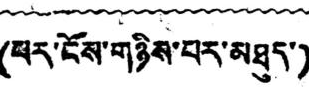(པར་ངོས་གཉིས་པར་མཐུད་)
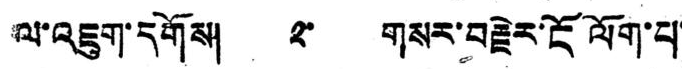ལ་འཇུག་དོགས། ༢་ གསར་བརྗེར་ངོ ལོག་པ་་
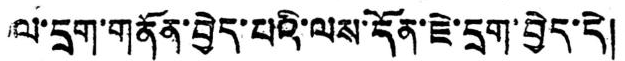ལ་དྲག་གནོན་བྱེད་པའི་ལས་དོན་ཇེ་དྲག་བྱེད་དེ།
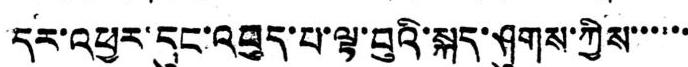དར་འཕྱར་དུང་འབུད་པ་ལྟ་བུའི་སྐད་ཤུགས་ཀྱིས་་་་་་
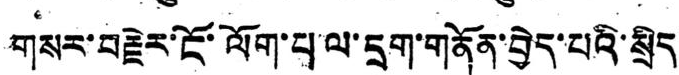གསར་བརྗེར་ངོ་ལོག་པ་ལ་དྲག་གནོན་བྱེད་པའི་སྲིད་
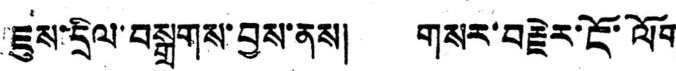ཇུས་དྲིལ་བསྒྲགས་བཡས་ནས། གསར་བརྗེར་ངོ་ལོག
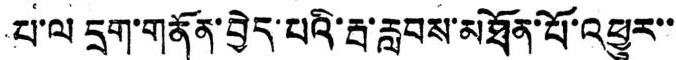པ་ལ དྲག་གནོན་བྱེད་པའི་རྦ་རླབས་མཐོན་པོ་འཕྱུར་་་
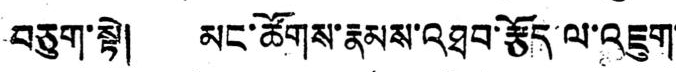བཅུག་སྟེ། མང་ཚོགས་རྣམས་འཐབ་རྩོད་ལ་འཇུག་
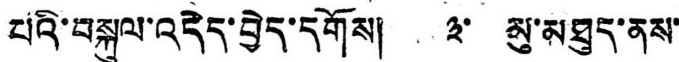པའི་བསྐུལ་འདེད་བྱེད་དགོས། ༣་ མུ་མཐུད་ནས་
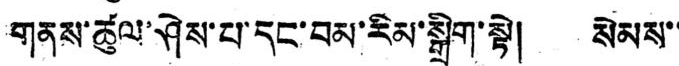གནས་ཚུལ་ཤེས་པ་དང་བམ་རིམ་སྒྲིག་སྟེ། སེམས་་
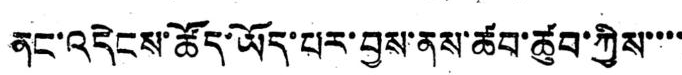ནང་འདེངས་ཚོད་ཡོད་པར་བྱས་ནས་ཚབ་ཚུབ་ཀྱིས་་་་
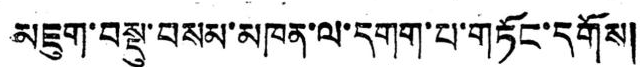མཇུག་བསྡུ་བསམ་མཁན་ལ་དགག་གཏོང་དོགས།
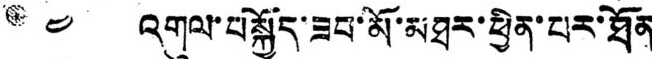༤ འགུལ་བསྐྱོད་ཟབ་མོ་མཐར་ཕྱིན་པར་ཐོན
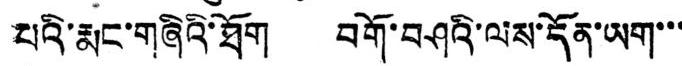པའི་རྨང་གཞིའི་ཐོག བགོ་གཤའི་ལས་དོན་ཡག་་་
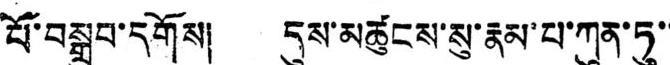པོ་བསྒྲུབ་དགོས། དུས་མཚུངས་སུ་རྣམ་པ་ཀུན་ཏུ་་
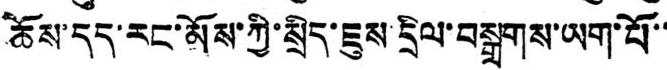ཆོས་དད་རང་མོས་ཀྱི་སྲིད་ཇུས་དྲིལ་བསྒྲགས་ཡག་པོ་་་
